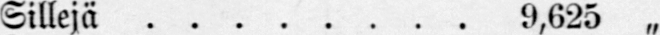Sillejä 9,625 „
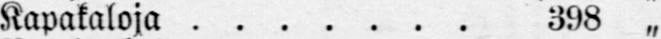Kapakaloja 398 „
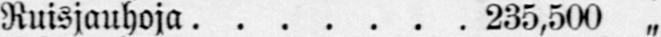Ruisjauhoja 235,500 „
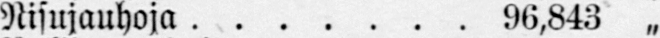Nisujauhoia 96,843 „
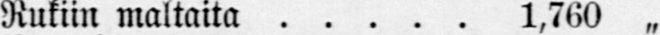Rukiin maltaita 1,760 „
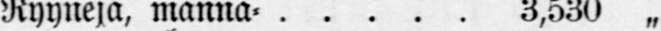Ryyneja, manna- 3,530 „
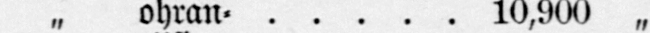„ ohran- 10,900 „
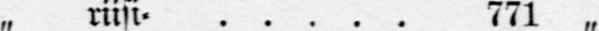„ riisi- 771 „
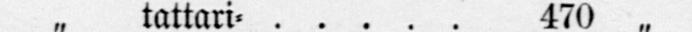„ tattari- 470 „
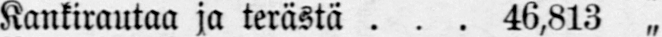Kankirautaa ja terästä 46,813 „
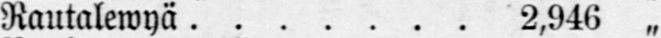Rautalewyä 2,946 „
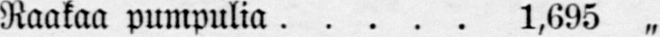Raakaa pumpulia 1,695 „
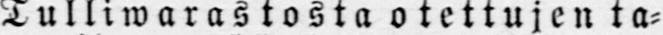Tulliwarastostasta otettujen ta-
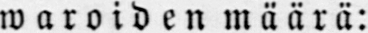waroiden määrä:
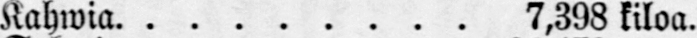Kahwia 7,398 kiloa.
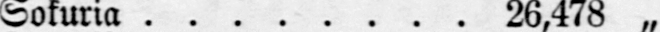Sokuria 26,478 „
